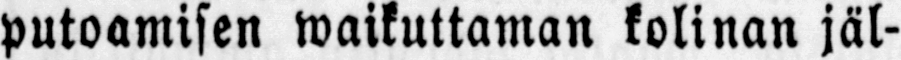putoamisen waikuttaman kolinan jäl-
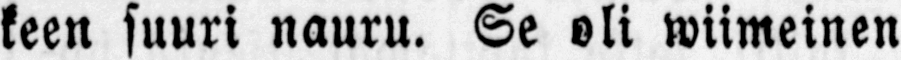keen suuri nauru. Se oli wiimeinen
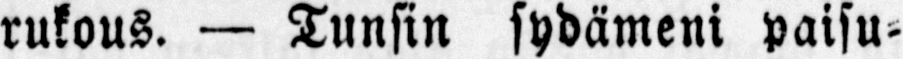rukous. — Tunsin sydämeni paisu-
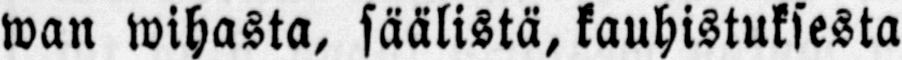wan wihasta, säälistä, kauhistuksesta
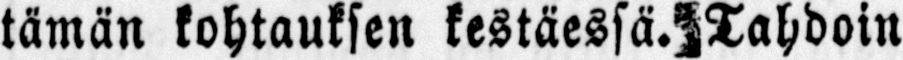tämän kohtauksen kestäessä. Tahdoin
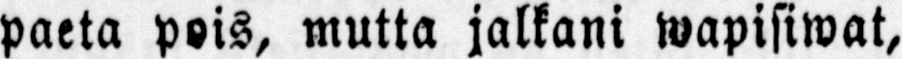paeta pois, mutta jalkani wapisiwat,
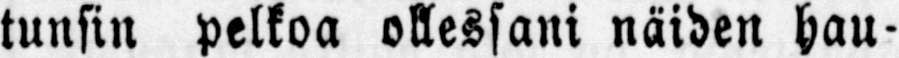tunsin pelkoa ollessani näiden hau-
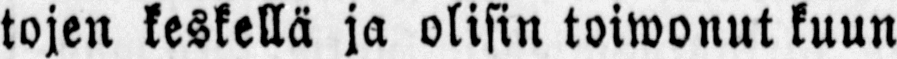tojen keskellä ja olisin toiwonut kuun
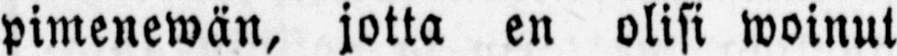pimenewän, jotta en olisi woinut
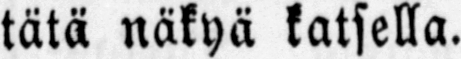tätä näkyä katsella.
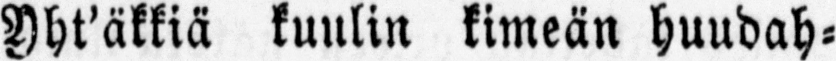Yht'äkkiä kuulin kimeän huudah-
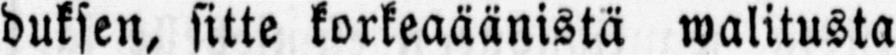duksen, sitte korkeaäänistä walitusta
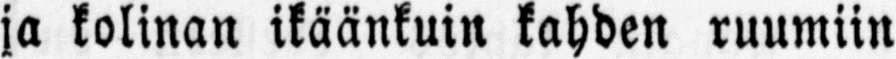ja kolinan ikäänkuin kahden ruumiin
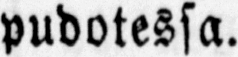pudotessa.
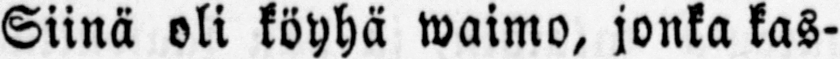Siinä oli köyhä waimo, jonka kas-
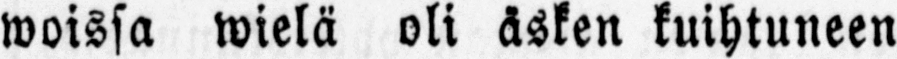woissa wielä oli äsken kuihtuneen
